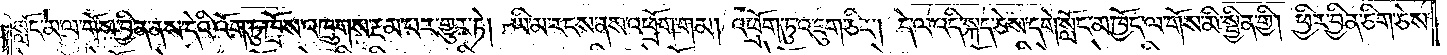སློང་མ་ལ་གོས་བྱིན་ནས་དེའི་འོག་ཏུ་ཁྲོས་འཁྲུགས་རྔམ་པར་གྱུར་ཏེ། ཡི་མ་རངས་ནས་འཕྲོག་གམ། འཕྲོག་ཏུ་འཇུག་ཅིང༌། དེ་ལ་འདི་སྐད་ཅེས་དགེ་སློང་མ་ཁྱོད་ལ་གོས་མི་སྦྱིན་གྱི། ཕྱིར་བྱིན་ཅིག་ཅེས་
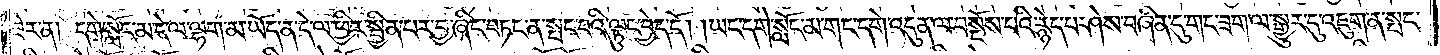ཟེར་ན། དགེ་སློང་མ་དེ་ལ་ལྷག་མ་ཡོད་ན་དེ་ལ་ཕྱིར་སྦྱིན་པར་བྱ་ཞིང་བཏང་ན་སྤང་བའི་ལྟུང་བྱེད་དོ། །ཡང་དགེ་སློང་མ་གང་དགེ་འདུན་ལ་བསྔོས་པའི་རྙེད་པ་ཤེས་བཞིན་དུ་གང་ཟག་ལ་སྒྱུར་དུ་འཇུག་ན་སྤང་
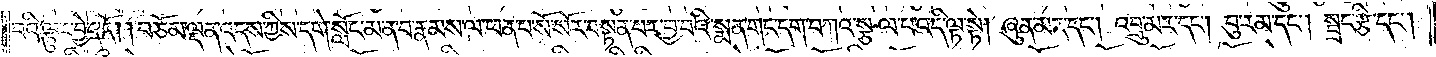པའི་ལྟུང་བྱེད་དོ། །བཅོམ་ལྡན་འདས་ཀྱིས་དགེ་སློང་མ་ན་བ་རྣམས་ལ་ཕན་པ་སོ་སོར་བསྟན་པར་བྱ་བའི་སྨན་གང་དག་བཀའ་སྩལ་པ་འདི་ལྟ་སྟེ། ཞུན་མར་དང༌། འབྲུ་མར་དང༌། བུ་རམ་དང༌། སྦྲང་རྩི་དང༌།
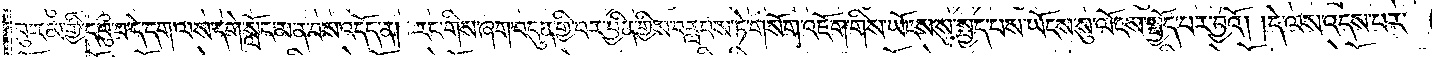བུ་རམ་གྱི་དབུ་བ་དེ་དག་ལས་དགེ་སློང་མ་ན་བས་འདོད་ན། རང་གིས་ཞག་བདུན་གྱི་བར་བྱིན་གྱིས་བརླབས་ཏེ་གསོག་འཇོག་གིས་ཡོངས་སུ་སྤྱད་པས་ཡོངས་སུ་ལོངས་སྤྱོད་པར་བྱའོ། །དེ་ལས་འདས་པར་
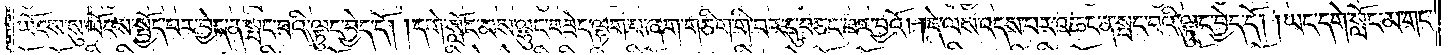ཡོངས་སུ་ལོངས་སྤྱོད་པར་བྱེད་ན་སྤང་བའི་ལྟུང་བྱེད་དོ། །དགེ་སློང་མས་ལྷུང་བཟེད་ལྷག་པ་ཞག་གཅིག་གི་བར་དུ་བཅང་བར་བྱའོ། །དེ་ལས་འདས་པར་འཆང་ན་སྤང་བའི་ལྟུང་བྱེད་དོ། །ཡང་དགེ་སློང་མ་གང་
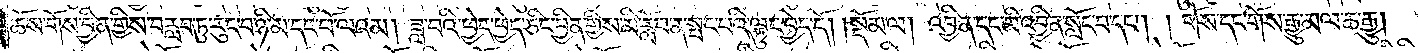ཆོས་གོས་བྱིན་གྱིས་བརླབ་ཏུ་རུང་བ་ཉི་མ་དང་པོ་ལའམ། ཟླ་པའི་ཕྱེད་ཕྱེད་ཅིང་བྱིན་གྱིས་མི་རློབ་ན་སྤང་བའི་ལྟུང་བྱེད་དོ། །སྡོམ་ལ། འབྱིན་དང་མི་འབྱིན་སློང་བ་དང༌། །གོས་དང་གོས་རྒྱུ་མལ་ཆ་རྒྱུ།
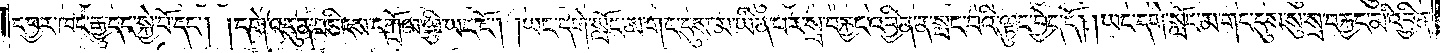དབྱར་ཁང་རྒྱུ་དང་སྐྱེ་བོ་དང༌། །དགེ་འདུན་བཅིངས་དཀྲོལ་ལྕི་ཡང་ངོ༌། །ཡང་དགེ་སློང་མ་གང་དུས་མ་ཡིན་པར་སྲ་བརྐྱང་འབྱིན་ན་སྤང་བའི་ལྟུང་བྱེད་དོ། །ཡང་དགེ་སློང་མ་གང་དུས་སུ་སྲ་བརྐྱང་མི་འབྱིན་
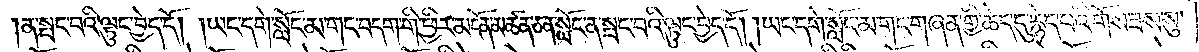ན་སྤང་བའི་ལྟུང་བྱེད་དོ། །ཡང་དགེ་སློང་མ་གང་བདག་གི་ཕྱིར་མངོན་མཚན་ཅན་སློང་ན་སྤང་བའི་ལྟུང་བྱེད་དོ། །ཡང་དགེ་སློང་མ་གང་གཞན་གྱི་ཆེད་དུ་རྙེད་པའི་གོས་ཟས་སུ་
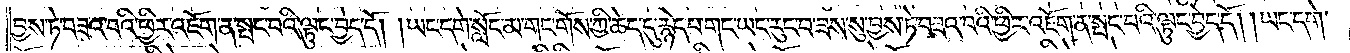བྱས་ཏེ་བཟའ་བའི་ཕྱིར་འཇོག་ན་སྤང་བའི་ལྟུང་བྱེད་དོ། །ཡང་དགེ་སློང་མ་གང་གོས་ཀྱི་ཆེད་དུ་རྙེད་པ་གང་ཡང་རུང་བ་ཟས་སུ་བྱས་ཏེ་བཟའ་བའི་ཕྱིར་འཇོག་ན་སྤང་བའི་ལྟུང་བྱེད་དོ། །ཡང་དགེ་
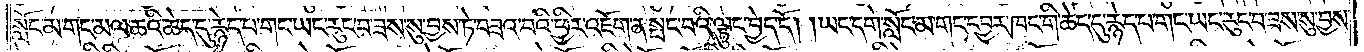སློང་མ་གང་མལ་ཆའི་ཆེད་དུ་རྙེད་པ་གང་ཡང་རུང་བ་ཟས་སུ་བྱས་ཏེ་བཟའ་བའི་ཕྱིར་འཇོག་ན་སྤང་བའི་ལྟུང་བྱེད་དོ། །ཡང་དགེ་སློང་མ་གང་དབྱར་ཁང་གི་ཆེད་དུ་རྙེད་པ་གང་ཡང་རུང་བ་ཟས་སུ་བྱས་
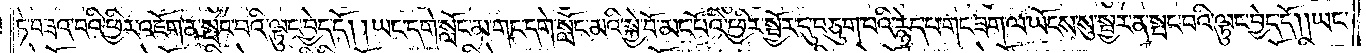ཏེ་བཟའ་བའི་ཕྱིར་འཇོག་ན་སྤང་བའི་ལྟུང་བྱེད་དོ། །ཡང་དགེ་སློང་མ་གང་དགེ་སློང་མའི་སྐྱེ་བོ་མང་པོའི་ཕྱིར་སྦྱོར་དུ་བཅུག་པའི་རྙེད་པ་གང་ཟག་ལ་ཡོངས་སུ་སྦྱར་ན་སྤང་བའི་ལྟུང་བྱེད་དོ། །ཡང་
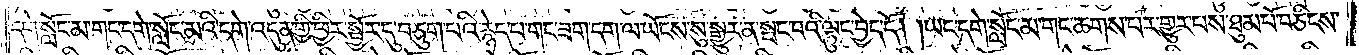དགེ་སློང་མ་གང་དགེ་སློང་མའི་དགེ་འདུན་གྱི་ཕྱིར་སྦྱོར་དུ་བཅུག་པའི་རྙེད་པ་གང་ཟག་དག་ལ་ཡོངས་སུ་སྒྱུར་ན་སྤང་བའི་ལྟུང་བྱེད་དོ། །ཡང་དགེ་སློང་མ་གང་ཆགས་པར་གྱུར་པས་ཐུམ་པོ་བཅིངས་
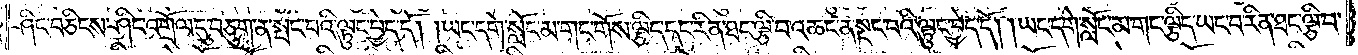ཤིང་བཅིངས་ཤིང་འགྲོལ་དུ་བཅུག་ན་སྤང་བའི་ལྟུང་བྱེད་དོ། །ཡང་དགེ་སློང་མ་གང་གོས་ལྕིད་དང་རིན་ཐང་ལྕི་བ་འཆང་ན་སྡང་བའི་ལྟུང་བྱེད་དོ། །ཡང་དགེ་སློང་མ་གང་ལྕིད་ཡང་བ་རིན་ཐང་ལྕི་བ་
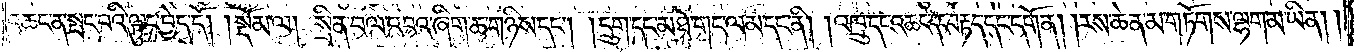འཆང་ན་སྤང་བའི་ལྟུང་བྱེད་དོ། །སྡོམ་ལ། སྲིན་བལ་འབའ་ཞིག་ཆ་གཉིས་དང༌། །དྲུག་དང་མཐེ་གང་ལམ་དང་ནི། །འཁྲུ་དང་འཆང་དང་བརྟད་དང་དགོན། །རས་ཆེན་མ་གཏོགས་ལྷག་མ་ཡིན། །
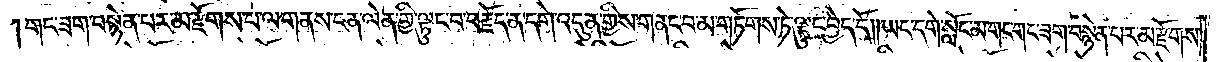གང་ཟག་བསྙེན་པར་མ་རྫོགས་པ་ལ་གནས་ངན་ལེན་གྱི་ལྟུང་བ་བརྗོད་ན་དགེ་འདུན་གྱིས་གནང་བ་མ་གཏོགས་ཏེ་ལྟུང་བྱེད་དོ། །ཡང་དགེ་སློང་མ་གང་གང་ཟག་བསྙེན་པར་མ་རྫོགས་
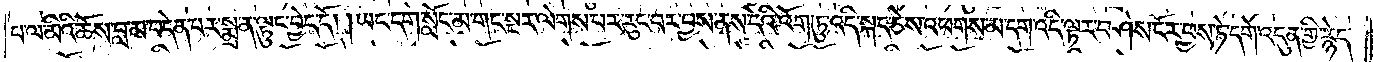པ་ལ་མིའི་ཆོས་བླ་མ་བདེན་པར་སྨྲ་ན་ལྟུང་བྱེད་དོ། །ཡང་དགེ་སློང་མ་གང་སྔར་ལེགས་པར་རུང་བར་བྱས་ནས་དེའི་འོག་ཏུ་འདི་སྐད་ཅེས་འཕགས་མ་དག་འདི་ལྟར་བཤེས་ངོར་ཕྱས་ཏེ་དགེ་འདུན་གྱི་རྙེད་
